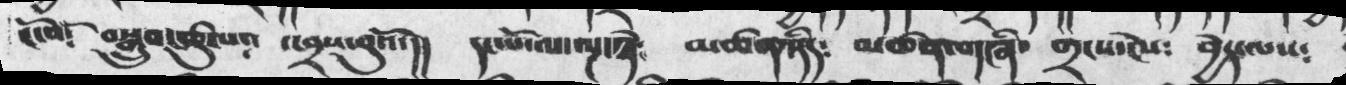ངོ་བོ༴  བསྒྲུབ་ཚུལ འབྲས་བུའོ་།།  དང་པོ་ལ་ལྔ་སྟེ༴  མཚན་ཉིད༴  མཚན་གཞི༴  གྲངས་ངེས༴  བྱེད་ལས༴
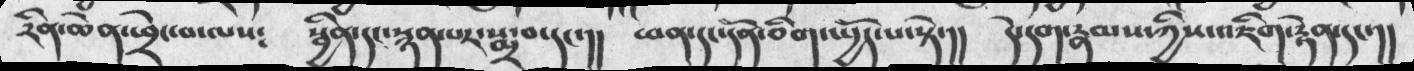རིན་ཆེན་ཕྲེང་བ་ལས༴  སྦྱིན་དང་སྙན་པར་སྨྲ་བ་དང་།།  ཕན་དང་དོན་ཅིག་སྤྱོད་པ་སྟེ་།།  དེ་དག་རྣམས་ཀྱིས་འཇིག་རྟེན་དང་།།
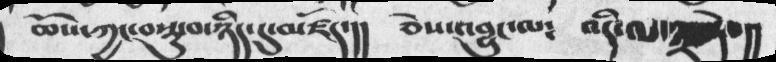ཆོས་ཀྱང་བསྡུ་བ་ཉིད་དུ་མཛོད་།།   ཅེས་འབྱུང་ལ༴  འདི་ལ་༣་ཏེ་།།
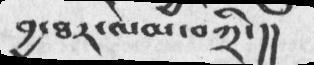བྱ་ཐར་ལམ་བཀྲི་།།
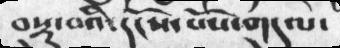བསྡུ་བའི་དངོས་པོས་གདུལ་
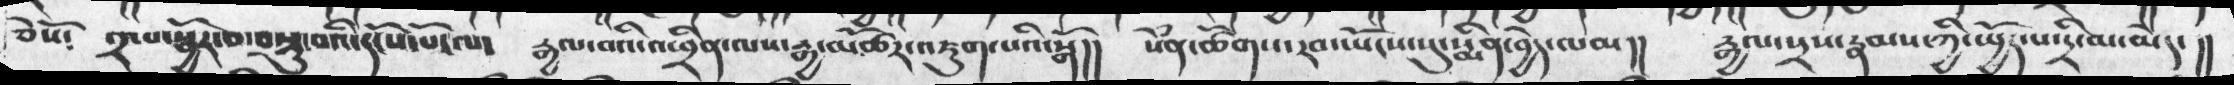ཅེསོ༴   ༢་པ་སྦྱོར་བ་་བསྡུ་བའི་དངོས་པོ་ལ་   རྒྱལ་བའི་འཕྲིན་ལས་རྒྱ་མཚོར་འཇུག་པའི་སྒོ།།   སེྃན་ཚོགས་རབ་ཡོངས་སུ་སྨིན་བྱེད་ལམ།།  རྒྱལ་སྲས་རྣམས་ཀྱི་ཡྱོད་པ་དྲི་མ་མེད་།།
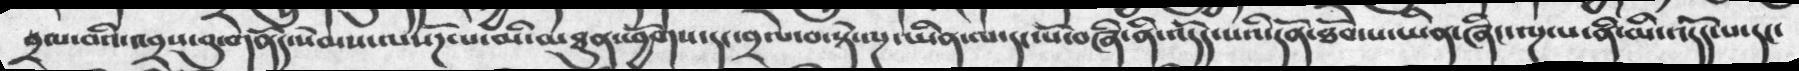བྲལ་བའི་འབྲས་བུ་གནོད་སེམས་ལ་སོཌ་པ་མི་མཐུན་ཕྱོགས་དང་བྲལ་བ་སྟེ་ལྔ་ཡིན་ལ་དང་པོ་བཞི་ནི་འདོད་པའི་དོན་ཐོབ་པ་ཡིན་ཞིང་ལྔ་པ་མི་འདོད་པ་དང་
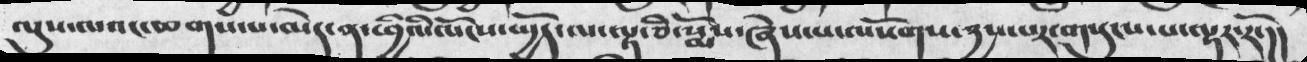ལུས་ལའང་ཆགས་པ་མེད་ན་ཕྱིའི་ལོངས་སྤྱོད་ལ་ལྟ་ཅི་སྨོས་ཞེས་པ་ལསོགས་དྱས་པར་གསུངས་པ་ལྟར་རོ་།།
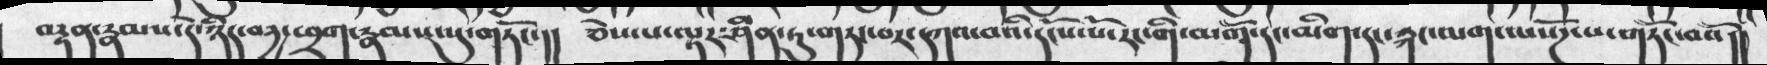བརྟན་རྣམས་དེ་ཉིད་བརྱ་ཕྲག་རྣམས་སུ་གཏོང་།། ཅེས་པ་ལྟར་ཤིན་ཏུ་གཏང་བར་དཀའ་བའི་དངོས་པོ་རང་གི་མགོ་དང་མིག་དང་རྐང་ལག་ལསོཌ་པ་གཏོང་བའོ།།
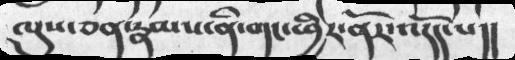ལུས་ཅན་རྣམས་ནི་གང་ཕྱིར་ནོར་འདོད་པ།།
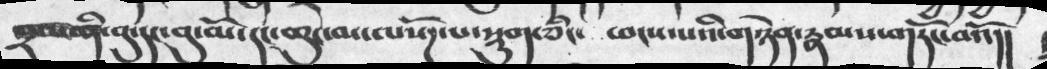༢་པ་ནི་བུ་དང་བུ་མོ་དང་ཆུང་མ་ལསོཌ་པ་སྡུག་ཅིང་ ཕངས་པའི་གཉེན་རྣམས་གཏོང་བའོ།།
